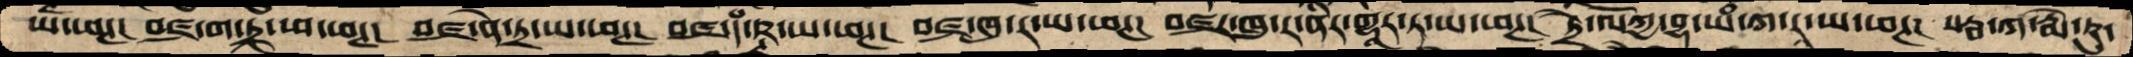ཨོཾ་ཕཊ། བཛྲ་ག་ཏྲ་ཡ་ཕཊ།  བཛྲ་ནེ་ཏྲ་ཡ་ཕཊ། བཛྲ་དཾ་ཥྚ་ཡ་ཕཊ།  བཛྲ་ཁུ་ར་ཡ་ཕཊ།  བཛྲ་ཁུ་ར་ནིར་གྷཱར་ཏ་ཡ་ཕཊ།  ཏྲཻ་ལོཀྱ་བྷ་ཡཾ་ཀ་རཱ་ཡ་ཕཊ།  སརྦ་ཀ་རྨེ་ཥུ་
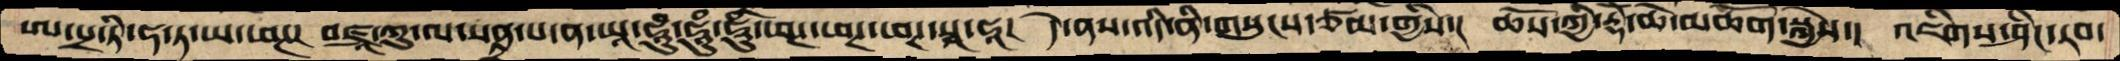ཨ་པྲ་ཏི་ཧ་ཏ་ཡ་ཕཊ།  བཛྲཱ་ཀུ་ལ་སནྟྲ་པ་ན་ཡཱ་ཧཱུཾ་ཧཱུཾ་ཧཱུཾ་ཕཊ་ཕཊ་ཕཊ་སྭཱ་ཧཱ།  དེ་ནས་འདི་ནི་གསུངས་ཙམ་གྱིས་།  ཆོས་ཀྱི་རྡོེ་ཆེ་མཆོག་སྐྱེས་།  འཇིགས་ཤིང་རབ་
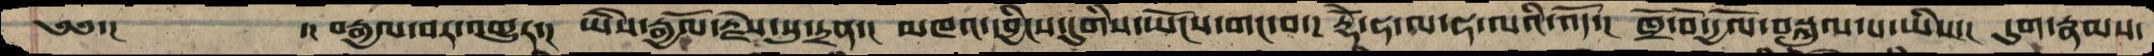༄༅་།      ་།བརྒྱལ་བར་འགྱུར་།  ཡཻས་རྒྱལོ་རྗེས་སུ་དྲན་།  མཁའ་དབྱིངས་དུགིས་ཡོངས་གང་བ་།  རྡོེ་ཧ་ལ་ཧ་ལའི་འོད་།  ཁྲོ་བོ་དྱལོ་བསྐུལ་པ་ཡིས་།  དུག་རྣམས་
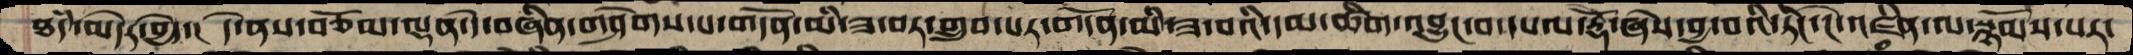ཐཾད་མེདར་བྱེད་།  དེ་ནས་བཅོམ་ལྡན་དེ་བཞིན་གཤེགས་པ་གདོན་མི་ཟ་བར་གྲུབ་པར་གདོན་མི་ཟ་བའི་དམ་ཚིག་འབྱུང་བ་དཔལ་རྡོེ་ཞེས་བྱ་བའི་ཏིང་ངེ་འཛིན་ལ་སྙོམས་པར་
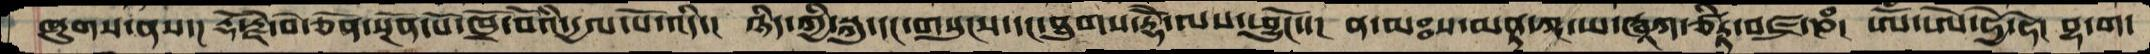ཞུགས་ནས་།  རྡོ་རྗེ་བེ་ཅོན་སྔོན་པོ་ཁྲོ་བོའི་དྱལ་པོ་འདི་།  ཉིད་ཀྱི་སྐུ་དང་གསུངས་དང་ཐུགས་རྡོེ་ལས་ཕྱུངོ་་།  ན་མཿས་མནྟ་ཀཱ་ཡ་ཝཱཀ་ཙིཏྟ་བཛྲ་ཎཾ།  ཨོཾ་ཨེ་ཧྱེ་ཧེ།  བྷ་ག་
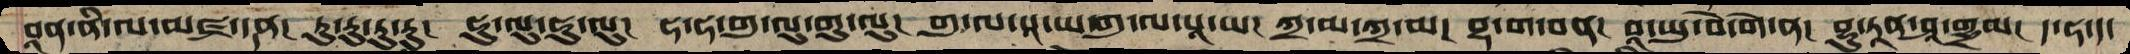བཱན་ནི་ལ་མཛྲ་དནྡ།  རུ་རུ་རུ་རུ།  ཧུ་ལུ་ཧུ་ལུ།  ཧ་ཧ་གུ་ལུ་གུ་ལུ།  གུ་ལ་པཱ་ཡ་གུ་ལ་པཱ་ཡ།  ཀྲ་མ་ཀྲ་མ། བྷ་ག་བན། བཱ་ཡུ་བེ་གེ་ན།  བྷུ་ཏཱན་ཤཱ་གྷྲམ། ད་ཧ་ད་
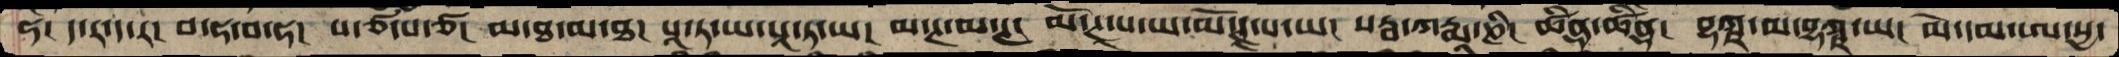ཧ།  ད་ར་ད་ར།  བ་ཧ་བ་ཧ།  པ་ཙ་པ་ཙ། མ་ཐ་མ་ཐ། པཱ་ཏ་ཡ་པཱ་ཏ་ཡ།  མ་ཊ་མ་ཊ།  མོ་ཊཱ་པ་ཡ་མོ་ཊཱ་པ་ཡ།  སརྦ་ཀརྨཱ་ཎི།  ཚིནྡ་ཚིནྡ།  བྷཀྵ་མ་བྷཀྵ་ཡ།  མེ་དམ་ཨ་སྱ་
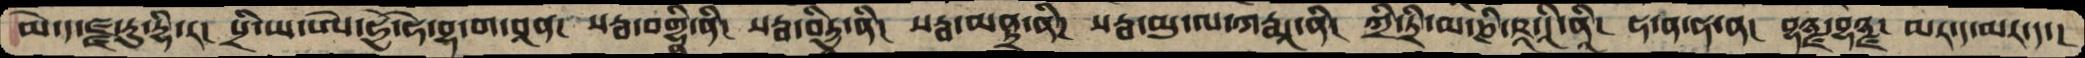མེ་ད་ཛྫ་རུ་དྷི་ར།  པྲི་ཡ་ཨེ་ཧྱེ་ཧེ་བྷ་ག་བཱན།  སརྦ་བགྷི་ནི།  སརྦ་བིཏྱ་ནི།  སརྦ་མནྟྲ་ནི།  སརྦ་མུ་ལ་ཀརྨཱ་ནི།  ཀྲི་ཏྲི་མ་ཎི་ཥཱ་དཱི་ནཱི།  ཧ་ན་ཧ་ན།  བྷཉྫ་བྷཉྫ།  མར་ད་མར་ད་།
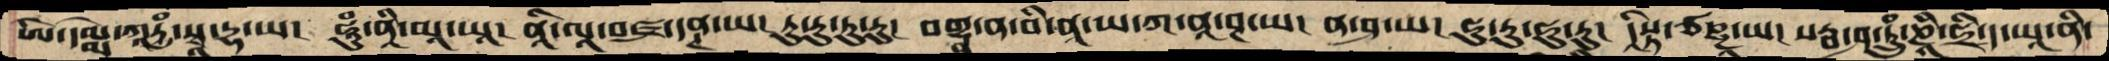ཨེ་དམྨེ་ཀཱཏྱཾ་སྭཱ་དྷ་ཡ།  ཧཱུཾ་ནཱི་མཱ་ཡཱ།  ནཱི་ལཱ་བཛྲ་དནྚ་ཡ།  རུ་རུ་རུ་རུ།  བགྷ་ན་བི་ནཱ་ཡ་ཀ་ནཱ་ཤ་ཡ།  ན་ཤ་ཡ། ཧུ་རུ་ཧུ་རུ། དཱིསྟ་ཙཎྜ་ཡ། སརྦ་ཤ་ཏྲུཾ་ཎཱི་ཧྲི་ད་ཡཱ་ནི་
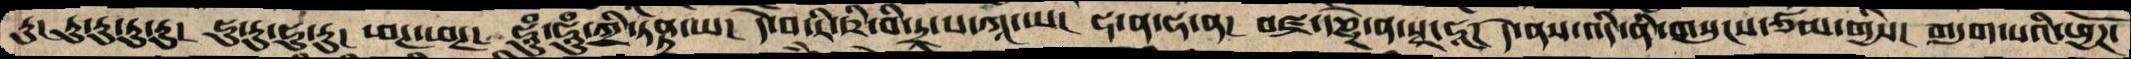རུ།  རུ་རུ་རུ་རུ།  ཧུ་རུ་ཧུ་རུ།  ཕཊ་ཕཊ།  ཧཱུཾ་ཧཱུཾ་ཀྲི་ཏེནྟ་ཡ་།  དེ་བ་རི་ཥི་བི་ཏྲ་པ་ཀཱ་ཡ།  ཧ་ན་ཧ་ན།  བཛྲ་དཎྜེ་ན་སྭཱ་ཧཱ། དེ་ནས་འདི་ནི་གསུངས་ཙམ་གྱིས།  གདུག་པའི་ཕྱོཌ་
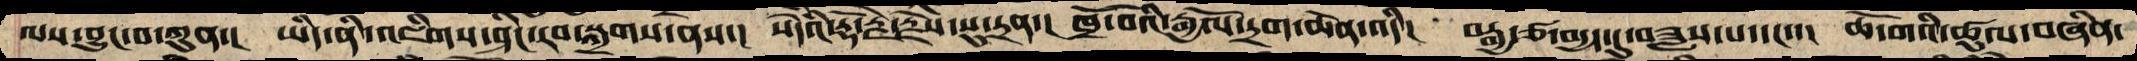ལས་བྱུང་བ་ཀུན་།  ཡིད་ནི་འཇིགས་ཤིང་རབ་སྐྲགས་ནས་།  སེདཾའ་རྡོ་རྗེ་རྗེས་སུ་དྲན་།  ཁྲོ་བོའི་རྒྱལོ་དྲག་ཆེན་འདི་།  བརྒྱ་རྩ་བདྱད་དུ་བཟླས་པ་དང་་།  ཆོ་གའི་ཚུལ་བཞིན་
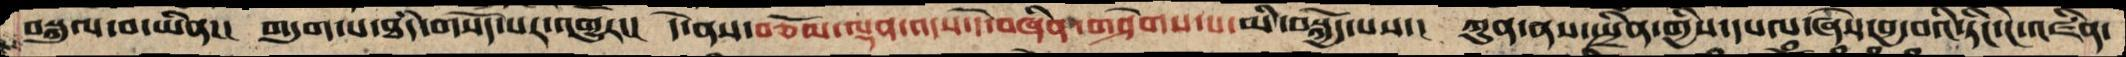བསྐུལ་བ་ཡིན་།  གདུག་པ་ཐཾད་གསོད་པར་འགྱུར་།  དེ་ནས་བཅོམ་ལྡན་འདས་དེ་བཞིན་གཤེགས་པ་མི་བསྐྱོད་པས་།  ཀུན་ནས་སྤྲིན་གྱིས་དཔལ་ཞེས་བྱ་བའི་ཏིང་ངེ་འཛིན་
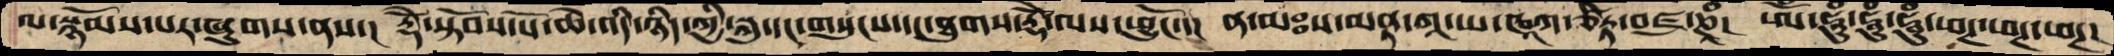ལ་སྙོམས་པར་ཞུགས་ནས་།  རྡོེ་སྟོབས་པོ་ཆེ་འདི་ཉིད་ཀྱི་སྐུ་དང་གསུངས་དང་ཐུགས་རྡོེ་ལས་ཕྱུངོ་་།  ན་མཿས་མནྟ་ཀཱ་ཡ་ཝཱཀ་ཙིཏྟ་བཛྲཎཱཾ། ཨོཾ་ཧཱུཾ་ཧཱུཾ་ཧཱུཾ་ཕཊ་ཕཊ་ཕཊ།
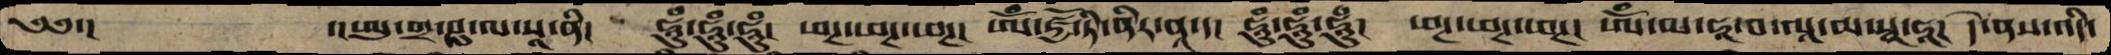༄༅་།       ་།ཨུ་གྲ་ཤུ་ལ་སཱ་ནི།  ཧཱུཾ་ཧཱུཾ་ཧཱུཾ།  ཕཊ་ཕཊ་ཕཊ།  ཨོཾ་ཛྱོ་ཏི་ནིར་ནཱ་ད།  ཧཱུཾ་ཧཱུཾ་ཧཱུཾ།  ཕཊ་ཕཊ་ཕཊ།  ཨོཾ་མ་ཧཱ་བ་ལཱ་མ་སྭཱ་ཧཱ།  དེ་ནས་འདི་
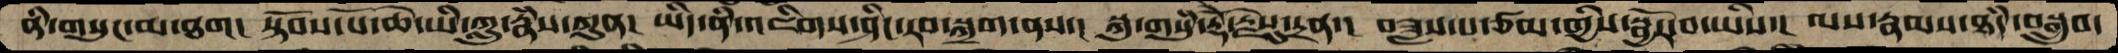ནི་གསུང་མ་ཐག།  སྟོབས་པོ་ཆེ་ཡི་ཀླུ་རྣཾས་ཀུན།  ཡིད་ནི་འཇིགས་ཤིང་རབ་སྐྲག་ནས་།  སྐུ་གསུཾ་རྡོེ་རྗེསུ་དྲན་།  བཟླས་པ་ཙམ་གྱིས་སྦྱོར་བ་ཡིས་།  ལས་རྣམས་ཐཾད་བསྒྲུབ་
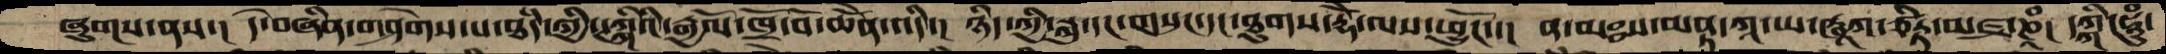ཞུགས་ནས་།  དེ་བཞིན་གཤེགས་པ་ཐཾད་ཀྱི་ཊཀྐིའི་རྒྱལ་ོཁྲོ་བོ་ཆེནོ་འདི་།  ཉིད་ཀྱི་སྐུ་དང་གསུང་དང་ཐུགས་རྡཻོ་ལས་ཕྱུངོ་་།  ན་མཿས་མནྟ་ཀཱ་ཡ་ཝཱཀ་ཙིཏྟ་བཛྲ་ཎཱཾ་  དཀྐི་ཧཱུཾ་
